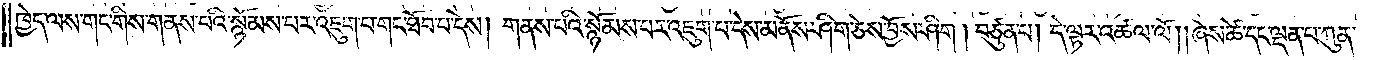ཁྱེད་ལས་གང་གིས་གནས་པའི་སྙོམས་པར་འཇུག་པ་གང་ཐོབ་པ་དེས། གནས་པའི་སྙོམས་པར་འཇུག་པ་དེས་མནོས་ཤིག་ཅེས་བྱོས་ཤིག །བཙུན་པ། དེ་ལྟར་འཚལ་ལོ། །ཞེས་ཚེ་དང་ལྡན་པ་ཀུན་
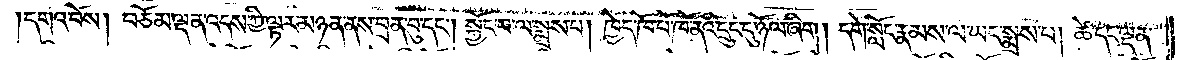དགའ་བོས། བཅོམ་ལྡན་འདས་ཀྱི་ལྟར་མཉན་ནས་བྲན་བུ་དང༌། སྐྱོང་བ་ལ་སྨྲས་པ། ཁྱེད་ཁོ་བོ་ཁོ་ནའི་དྲུང་དུ་ཉོལ་ཞིག། དགེ་སློང་རྣམས་ལ་ཡང་སྨྲས་པ། ཚེ་དང་ལྡན་
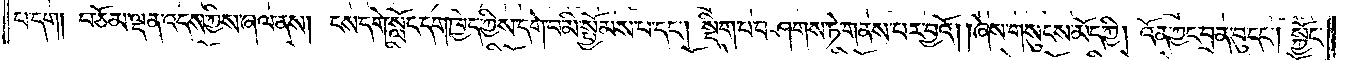པ་དག། བཅོམ་ལྡན་འདས་ཀྱིས་ཞལ་ནས། ངས་དགེ་སློང་དག་ཁྱེད་ཀྱིས་དགེ་བ་མི་སྤྱོམས་པ་དང༌། སྡིག་པ་བཤགས་ཏེ་གནས་པར་བྱའོ། །ཞེས་གསུངས་མོད་ཀྱི། འོན་ཀྱང་བྲན་བུ་དང༌། སྐྱོང་
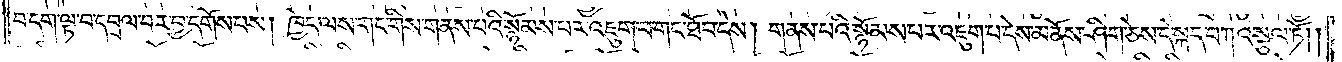བ་དག་ལྟ་བ་དབྲལ་བར་བྱ་དགོས་པས། ཁྱེད་ལས་གང་གིས་གནས་པའི་སྙོམས་པར་འཇུག་པ་གང་ཐོབ་དེས། གནས་པའི་སྙོམས་པར་འཇུག་པ་དེས་མནོས་ཤིག་ཅེས་དེ་སྐད་བཀའ་སྩལ་ཏོ། །
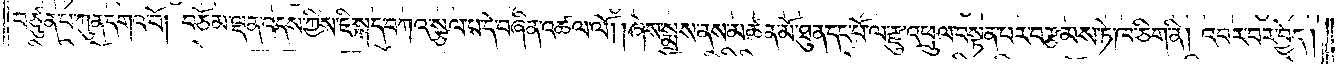བཙུན་པ་ཀུན་དགའ་བོ། བཅོམ་ལྡན་འདས་ཀྱིས་ཇི་སྐད་བཀའ་སྩལ་པ་དེ་བཞིན་འཚལ་ལོ། །ཞེས་སྨྲས་ནས་མཚན་མོ་ཐུན་དང་པོ་ལ་རྫུ་འཕྲུལ་བསྟན་པར་བརྩམས་ཏེ་ཁ་ཅིག་ནི། འབར་བར་བྱེད།
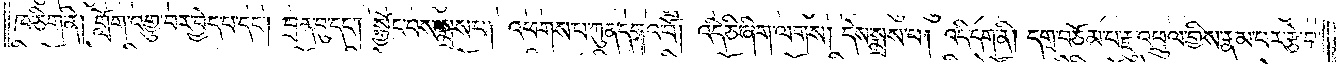ཁ་ཅིག་ནི། གློག་འགྱུ་བར་བྱེད་པ་དང༌། བྲན་བུ་དང༌། སྐྱོང་བས་སྨྲས་པ། འཕགས་པ་ཀུན་དགའ་བོ། འདི་ཅི་ཞིག་ལགས། དེས་སྨྲས་པ། འདི་དག་ནི། དགྲ་བཅོམ་པ་རྫུ་འཕྲུལ་གྱིས་རྣམ་པར་རྩེ་བ་
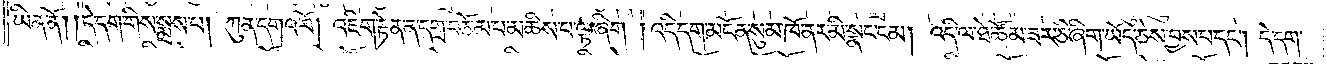ཡིན་ནོ། །དེ་དག་གིས་སྨྲས་པ། ཀུན་དགའ་བོ། འཇིག་རྟེན་ན་དགྲ་བཅོམ་པ་མཆིས་པ་ལྟ་ཞིག །འདི་དག་མངོན་སུམ་ཁོ་ནར་མི་སྣང་ངམ། འདི་ལ་ཐེ་ཚོམ་ཟར་ཅི་ཞིག་ཡོད་ཅེས་བྱས་པ་དང༌། དེ་དག་
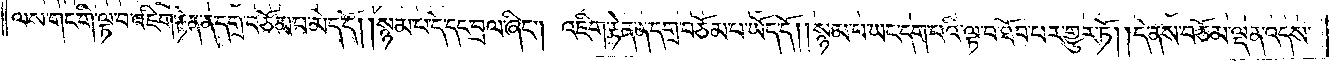ལས་གང་གི་ལྟ་བ་འཇིག་རྟེན་ན་དགྲ་བཅོམ་པ་མེད་དོ། །སྙམ་པ་དེ་དང་བྲལ་ཞིང༌། འཇིག་རྟེན་ན་དགྲ་བཅོམ་པ་ཡོད་དོ། །སྙམ་པ་ཡང་དག་པའི་ལྟ་བ་ཐོབ་པར་གྱུར་ཏོ། །དེ་ནས་བཅོམ་ལྡན་འདས་
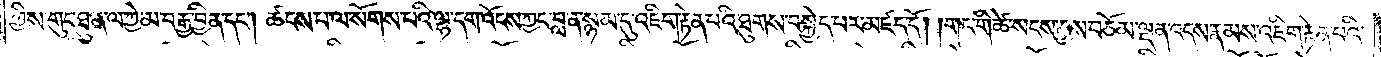ཀྱིས་གུང་ཐུན་ལ་ཀྱེ་མ་བརྒྱ་བྱིན་དང༌། ཚངས་པ་ལ་སོགས་པའི་ལྷ་དག་འོངས་ཀྱང་བླ་ན་སྙམ་དུ་འཇིག་རྟེན་པའི་ཐུགས་བསྐྱེད་པར་མཛད་དོ། །གང་གི་ཚེ་སངས་རྒྱས་བཅོམ་ལྡན་འདས་རྣམས་འཇིག་རྟེན་པའི་
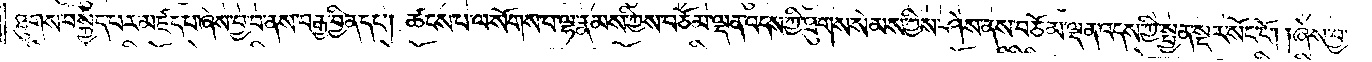ཐུགས་བསྐྱེད་པར་མཛད་པ་ཞེས་བྱ་བ་ནས་བརྒྱ་བྱིན་དང༌། ཚངས་པ་ལ་སོགས་པ་ལྷ་རྣམས་ཀྱིས་བཅོམ་ལྡན་འདས་ཀྱི་ཐུགས་སེམས་ཀྱིས་ཤེས་ནས་བཅོམ་ལྡན་འདས་ཀྱི་སྤྱན་སྔར་སོང་ངོ༌། །ཞེས་བྱ་
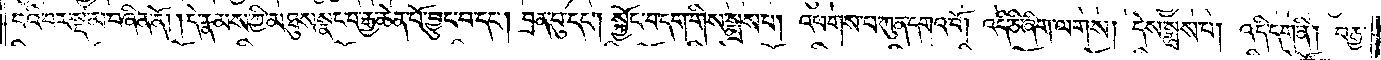བའི་བར་སྔ་མ་བཞིན་ནོ། །དེ་རྣམས་ཀྱི་མཐུས་སྣང་བ་རྒྱ་ཆེན་པོ་བྱུང་བ་དང༌། བྲན་བུ་དང༌། སྐྱོང་བ་དག་གིས་སྨྲས་པ། འཕགས་པ་ཀུན་དགའ་བོ། འདི་ཅི་ཞིག་ལགས། དེས་སྨྲས་པ། འདི་དག་ནི། བརྒྱ་
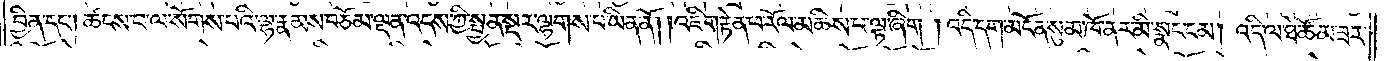བྱིན་དང༌། ཚངས་པ་ལ་སོགས་པའི་ལྷ་རྣམས་བཅོམ་ལྡན་འདས་ཀྱི་སྤྱན་སྔར་ལྷགས་པ་ཡིན་ནོ། །འཇིག་རྟེན་ཕ་རོལ་མཆིས་པ་ལྟ་ཞིག །འདི་དག་མངོན་སུམ་ཁོ་ནར་མི་སྣང་ངམ། འདི་ལ་ཐེ་ཚོམ་ཟར་
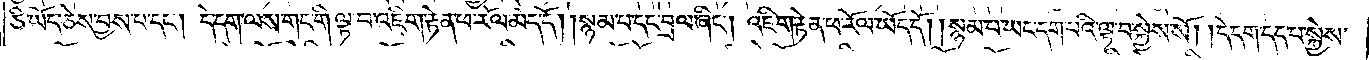ཅི་ཡོད་ཅེས་བྱས་པ་དང༌། དེ་དག་ལས་གང་གི་ལྟ་བ་འཇིག་རྟེན་ཕ་རོལ་མེད་དོ། །སྙམ་པ་དང་བྲལ་ཞིང༌། འཇིག་རྟེན་ཕ་རོལ་ཡོད་དོ། །སྙམ་པ་ཡང་དག་པའི་ལྟ་བ་སྐྱེས་སོ། །དེ་དག་དད་པ་སྐྱེས་
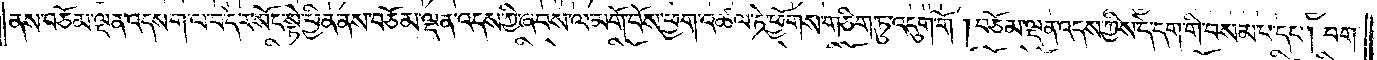ནས་བཅོམ་ལྡན་འདས་ག་ལ་བ་དེར་སོང་སྟེ་ཕྱིན་ནས་བཅོམ་ལྡན་འདས་ཀྱི་ཞབས་ལ་མགོ་བོས་ཕྱག་འཚལ་ཏེ་ཕྱོགས་གཅིག་ཏུ་འདུག་གོ །བཅོམ་ལྡན་འདས་ཀྱིས་དེ་དག་གི་བསམ་པ་དང༌། བག་
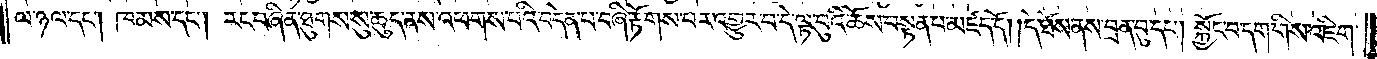ལ་ཉལ་དང༌། ཁམས་དང༌། རང་བཞིན་ཐུགས་སུ་ཆུད་ནས་འཕགས་པའི་བདེན་པ་བཞི་རྟོགས་པར་འགྱུར་བ་དེ་ལྟ་བུའི་ཆོས་བསྟན་པ་མཛད་དོ། །དེ་ཐོས་ནས་བྲན་བུ་དང༌། སྐྱོང་བ་དག་གིས་འཇིག་
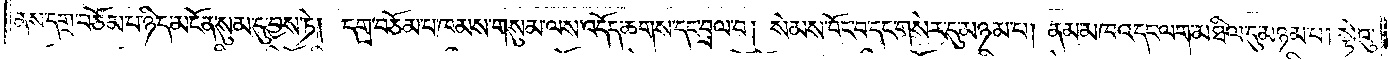ནས་དགྲ་བཅོམ་པ་ཉིད་མངོན་སུམ་དུ་བྱས་ཏེ། དགྲ་བཅོམ་པ་ཁམས་གསུམ་ལས་འདོད་ཆགས་དང་བྲལ་བ། སེམས་བོང་བ་དང་གསེར་དུ་མཉམ་པ། ནམ་མཁའ་དང་ལག་མཐིལ་དུ་མཉམ་པ། སྟེའུ་
